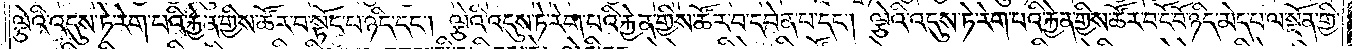ལྕེའི་འདུས་ཏེ་རེག་པའི་རྐྱེན་གྱིས་ཚོར་བ་སྟོང་པ་ཉིད་དང༌། ལྕེའི་འདུས་ཏེ་རེག་པའི་རྐྱེན་གྱིས་ཚོར་བ་དབེན་པ་དང༌། ལྕེའི་འདུས་ཏེ་རེག་པའི་རྐྱེན་གྱིས་ཚོར་བ་ངོ་བོ་ཉིད་མེད་པ་ལ་སྔོན་གྱི་
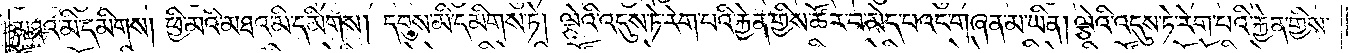མཐའ་མི་དམིགས། ཕྱི་མའི་མཐའ་མི་དམིགས། དབུས་མི་དམིགས་ཏེ། ལྕེའི་འདུས་ཏེ་རེག་པའི་རྐྱེན་གྱིས་ཚོར་བ་མེད་པའང་གཞན་མ་ཡིན། ལྕེའི་འདུས་ཏེ་རེག་པའི་རྐྱེན་གྱིས་
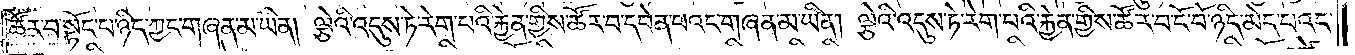ཚོར་བ་སྟོང་པ་ཉིད་ཀྱང་གཞན་མ་ཡིན། ལྕེའི་འདུས་ཏེ་རེག་པའི་རྐྱེན་གྱིས་ཚོར་བ་དབེན་པའང་གཞན་མ་ཡིན། ལྕེའི་འདུས་ཏེ་རེག་པའི་རྐྱེན་གྱིས་ཚོར་བ་ངོ་བོ་ཉིད་མེད་པའང་
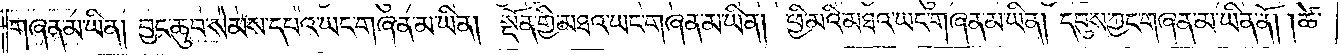གཞན་མ་ཡིན། བྱང་ཆུབ་སེམས་དཔའ་ཡང་གཞན་མ་ཡིན། སྔོན་གྱི་མཐའ་ཡང་གཞན་མ་ཡིན། ཕྱི་མའི་མཐའ་ཡང་གཞན་མ་ཡིན། དབུས་ཀྱང་གཞན་མ་ཡིན་ནོ། །ཚེ་
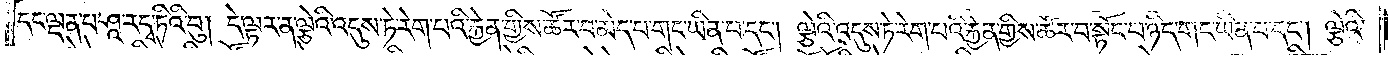དང་ལྡན་པ་ཤཱ་ར་དྭ་ཏིའི་བུ། དེ་ལྟར་ན་ལྕེའི་འདུས་ཏེ་རེག་པའི་རྐྱེན་གྱིས་ཚོར་བ་མེད་པ་གང་ཡིན་པ་དང༌། ལྕེའི་འདུས་ཏེ་རེག་པའི་རྐྱེན་གྱིས་ཚོར་བ་སྟོང་པ་ཉིད་གང་ཡིན་པ་དང༌། ལྕེའི་
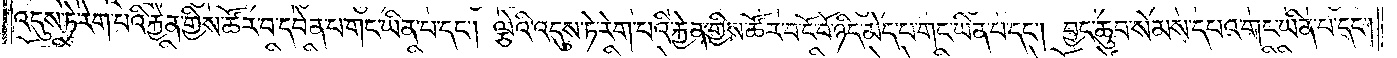འདུས་ཏེ་རེག་པའི་རྐྱེན་གྱིས་ཚོར་བ་དབེན་པ་གང་ཡིན་པ་དང༌། ལྕེའི་འདུས་ཏེ་རེག་པའི་རྐྱེན་གྱིས་ཚོར་བ་ངོ་བོ་ཉིད་མེད་པ་གང་ཡིན་པ་དང༌། བྱང་ཆུབ་སེམས་དཔའ་གང་ཡིན་པ་དང༌།
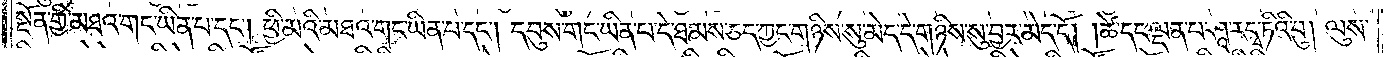སྔོན་གྱི་མཐའ་གང་ཡིན་པ་དང༌། ཕྱི་མའི་མཐའ་གང་ཡིན་པ་དང༌། དབུས་གང་ཡིན་པ་དེ་ཐམས་ཅད་ཀྱང་གཉིས་སུ་མེད་དེ་གཉིས་སུ་བྱར་མེད་དོ། །ཚེ་དང་ལྡན་པ་ཤཱ་རདྭ་ཏིའི་བུ། ལུས་
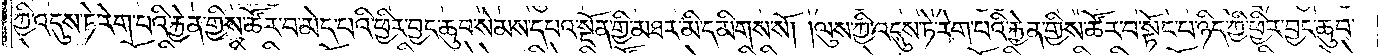ཀྱི་འདུས་ཏེ་རེག་པའི་རྐྱེན་གྱིས་ཚོར་བ་མེད་པའི་ཕྱིར་བྱང་ཆུབ་སེམས་དཔའ་སྔོན་གྱི་མཐར་མི་དམིགས་སོ། །ལུས་ཀྱི་འདུས་ཏེ་རེག་པའི་རྐྱེན་གྱིས་ཚོར་བ་སྟོང་པ་ཉིད་ཀྱི་ཕྱིར་བྱང་ཆུབ་
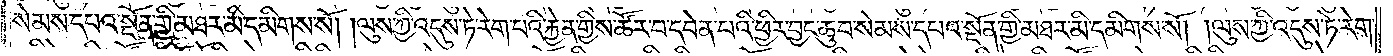སེམས་དཔའ་སྔོན་གྱི་མཐར་མི་དམིགས་སོ། །ལུས་ཀྱི་འདུས་ཏེ་རེག་པའི་རྐྱེན་གྱིས་ཚོར་བ་དབེན་པའི་ཕྱིར་བྱང་ཆུབ་སེམས་དཔའ་སྔོན་གྱི་མཐར་མི་དམིགས་སོ། །ལུས་ཀྱི་འདུས་ཏེ་རེག་
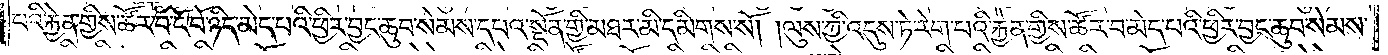པའི་རྐྱེན་གྱིས་ཚོར་བ་ངོ་བོ་ཉིད་མེད་པའི་ཕྱིར་བྱང་ཆུབ་སེམས་དཔའ་སྔོན་གྱི་མཐར་མི་དམིགས་སོ། །ལུས་ཀྱི་འདུས་ཏེ་རེག་པའི་རྐྱེན་གྱིས་ཚོར་བ་མེད་པའི་ཕྱིར་བྱང་ཆུབ་སེམས་
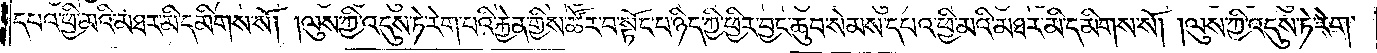དཔའ་ཕྱི་མའི་མཐར་མི་དམིགས་སོ། །ལུས་ཀྱི་འདུས་ཏེ་རེག་པའི་རྐྱེན་གྱིས་ཚོར་བ་སྟོང་པ་ཉིད་ཀྱི་ཕྱིར་བྱང་ཆུབ་སེམས་དཔའ་ཕྱི་མའི་མཐར་མི་དམིགས་སོ། ལུས་ཀྱི་འདུས་ཏེ་རེག་
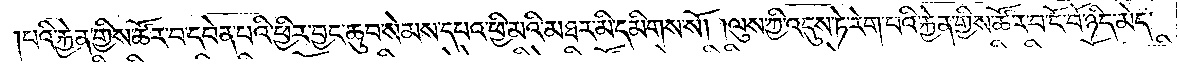པའི་རྐྱེན་གྱིས་ཚོར་བ་དབེན་པའི་ཕྱིར་བྱང་ཆུབ་སེམས་དཔའ་ཕྱི་མའི་མཐར་མི་དམིགས་སོ། །ལུས་ཀྱི་འདུས་ཏེ་རེག་པའི་རྐྱེན་གྱིས་ཚོར་བ་ངོ་བོ་ཉིད་མེད་
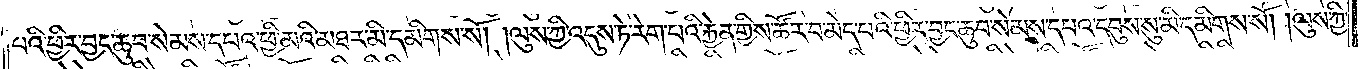པའི་ཕྱིར་བྱང་ཆུབ་སེམས་དཔའ་ཕྱི་མའི་མཐར་མི་དམིགས་སོ། །ལུས་ཀྱི་འདུས་ཏེ་རེག་པའི་རྐྱེན་གྱིས་ཚོར་བ་མེད་པའི་ཕྱིར་བྱང་ཆུབ་སེམས་དཔའ་དབུས་སུ་མི་དམིགས་སོ། །ལུས་ཀྱི་
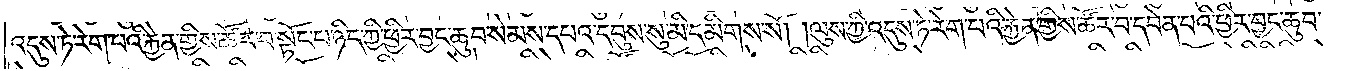འདུས་ཏེ་རེག་པའི་རྐྱེན་གྱིས་ཚོར་བ་སྟོང་པ་ཉིད་ཀྱི་ཕྱིར་བྱང་ཆུབ་སེམས་དཔའ་དབུས་སུ་མི་དམིགས་སོ། །ལུས་ཀྱི་འདུས་ཏེ་རེག་པའི་རྐྱེན་གྱིས་ཚོར་བ་དབེན་པའི་ཕྱིར་བྱང་ཆུབ་
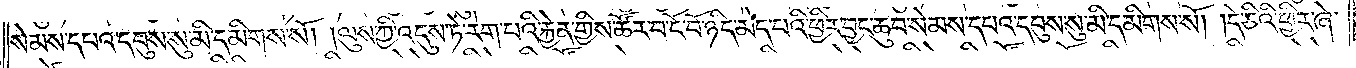སེམས་དཔའ་དབུས་སུ་མི་དམིགས་སོ། །ལུས་ཀྱི་འདུས་ཏེ་རེག་པའི་རྐྱེན་གྱིས་ཚོར་བ་ངོ་བོ་ཉིད་མེད་པའི་ཕྱིར་བྱང་ཆུབ་སེམས་དཔའ་དབུས་སུ་མི་དམིགས་སོ། །དེ་ཅིའི་ཕྱིར་ཞེ་
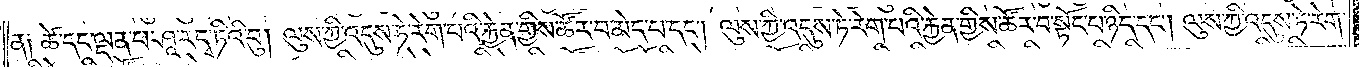ན། ཚེ་དང་ལྡན་པ་ཤཱ་རདྭ་ཏིའི་བུ། ལུས་ཀྱི་འདུས་ཏེ་རེག་པའི་རྐྱེན་གྱིས་ཚོར་བ་མེད་པ་དང༌། ལུས་ཀྱི་འདུས་ཏེ་རེག་པའི་རྐྱེན་གྱིས་ཚོར་བ་སྟོང་པ་ཉིད་དང༌། ལུས་ཀྱི་འདུས་ཏེ་རེག་
